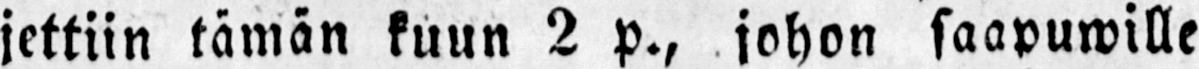jettiin tämän kuun 2 p., johon saapuwille
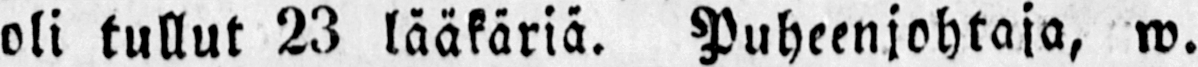oli tullut 23 lääkäriä. Puheenjohtaja, w.
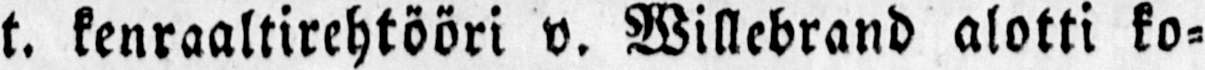t. kenraaltirehtööri v. Willebrand alotti ko-
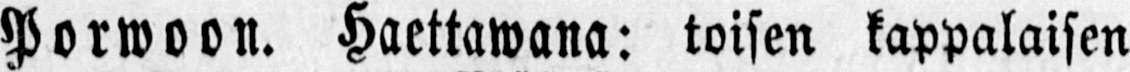Porwoon. Haettawana: toisen kappalaisen
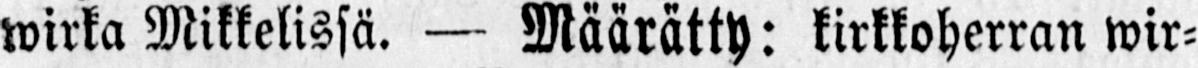wirka Mikkelissä. — Määrätty: kirkkoherran wir-
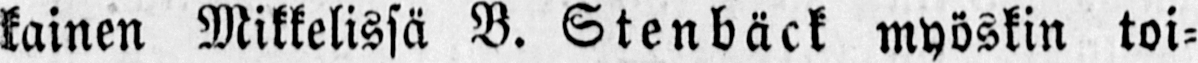kainen Mikkelissä B. Stenbäck myöskin toi-
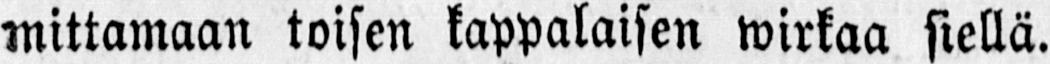mittamaan toisen kappalaisen wirkaa siellä.
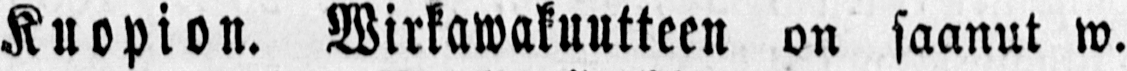Kuopion. Wirkawakuutteen on saanut w.
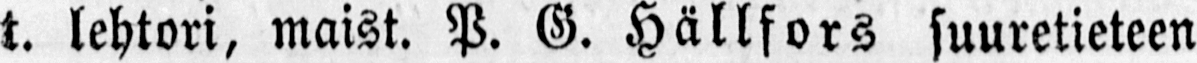t. lehtori, maist. P. G. Hällfors suuretieteen
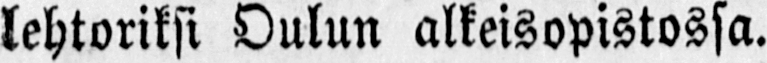lehtoriksi Oulun alkeisopistossa.
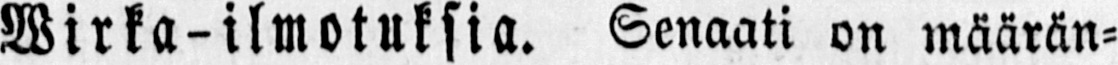Wirka-ilmotuksia. Senaati on määrän-
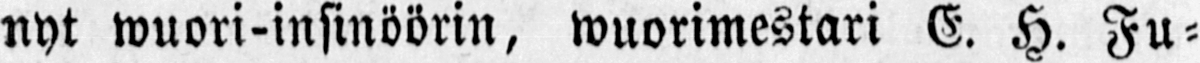nyt wuori-insinöörin, wuorimestari E. H. Fu-
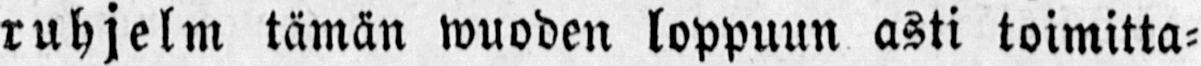ruhjelm tämän wuoden loppuun asti toimitta-
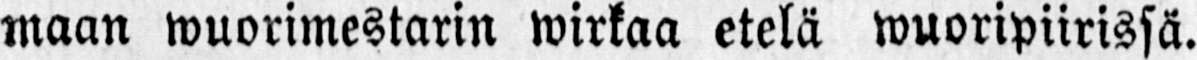maan wuorimestarin wirkaa etelä wuoripiirissä.
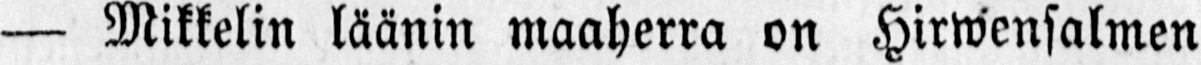— Mikkelin läänin maaherra on Hirwensalmen
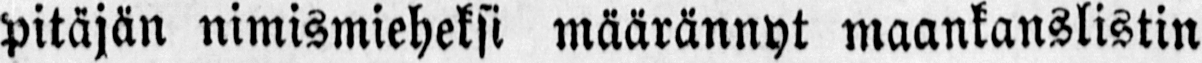pitäjän nimismieheksi määrännyt maankanslistin
